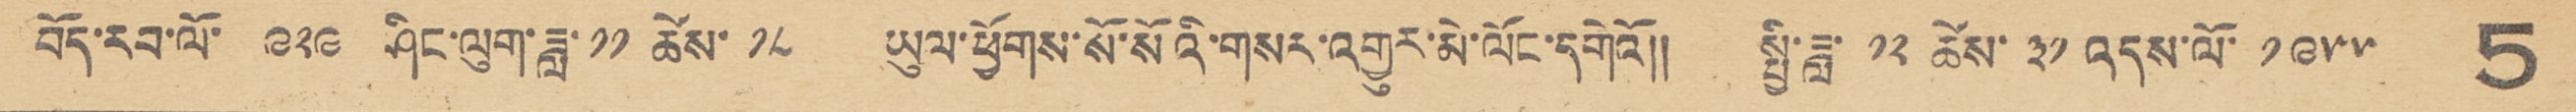བོད་རབ་ལོ་ ༩༢༩ ཤིང་ལུག་ཟླ་ ༡༡ ཚེས་ ༡༨ ཡུལ་ཕྱོགས་སོ་སོའི་གསར་འགྱུར་མེ་ལོང་དགེའོ།།  སྤྱི་ཟླ་ ༡༢ ཚེས་ ༣༡ འདས་ལོ་ ༡༩༥༥ 5
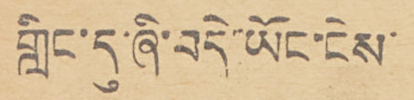གླིང་དུ་ཞི་བདེ་ཡོང་ངེས་
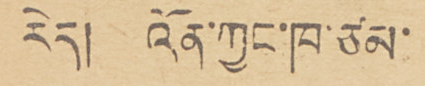རེད། འོན་ཀྱང་ཁ་ཙམ་
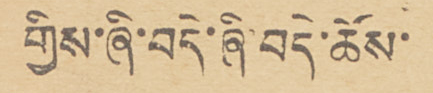གྱིས་ཞི་བདེ་ཞི་བདེ་ཆོས་
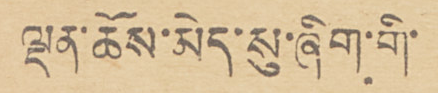ལྡན་ཆོས་མེད་སུ་ཞིག་གི་
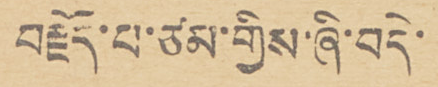བརྗོད་པ་ཙམ་གྱིས་ཞི་བདེ་
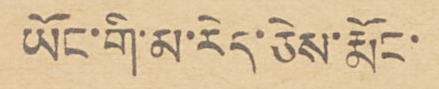ཡོང་གི་མ་རེད་ཅེས་རྨོང་
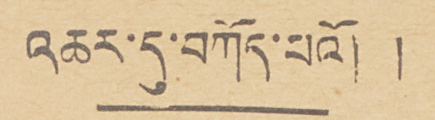འཆར་དུ་བཀོད་པའོ།  །
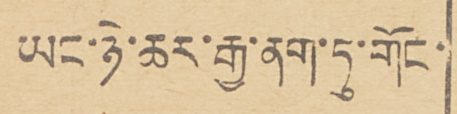ཡང་ཉེ་ཆར་རྒྱ་ནག་ཏུ་གོང་
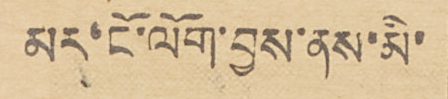མར་ངོ་ལོག་བྱས་ནས་མི་
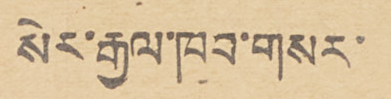སེར་རྒྱལ་ཁབ་གསར་
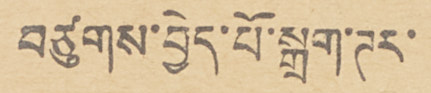བཙུགས་བྱེད་པོ་སྒྲག་ཊར་
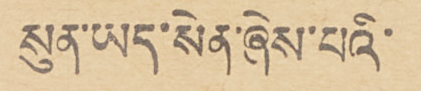སུན་ཡད་སེན་ཞེས་པའི་
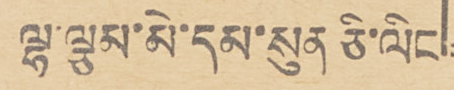ལྷ་ལྕམ་མེ་དམ་སུན ཅི་ལིང
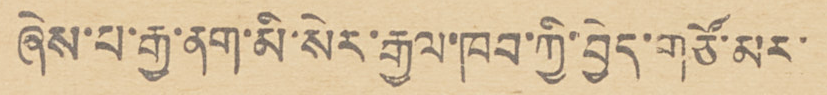ཞེས་པ་རྒྱ་ནག་མི་སེར་རྒྱལ་ཁབ་ཀྱི་བྱེད་གཙོ་མར་
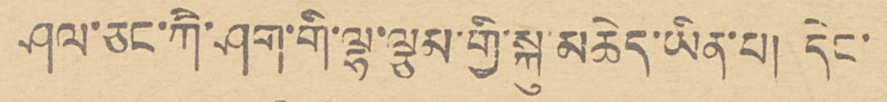ཤལ་ཅང་ཀཻ་ཤག་གི་ལྷ་ལྕམ་གྱི་སྐུ་མཆེད་ཡིན་པ། དེང་
